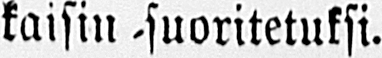kaisin suoritetuksi.
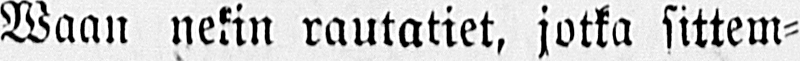Waan nekin rautatiet, jotka sittem-
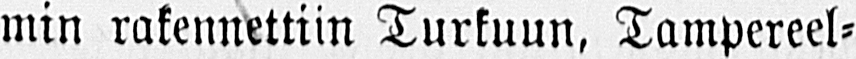min rakennettiin Turkuun, Tampereel-
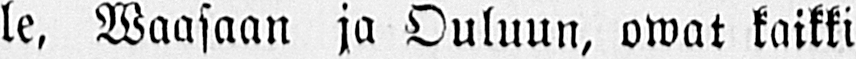le, Waasaan ja Ouluun, owat kaikki
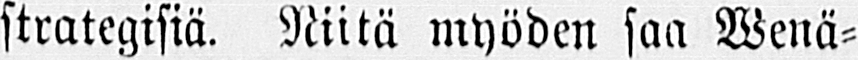strategisiä. Niitä myöden saa Wenä-
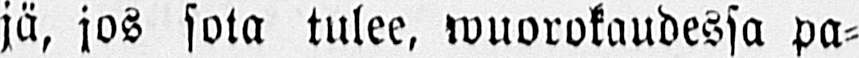jä, jos sota tulee, wuorokaudessa pa-
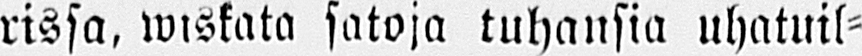rissa, wiskata satoja tuhansia uhatuil-
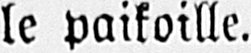le paikoille.
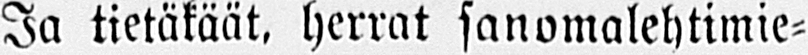Ja tietäkäät, herrat sanomalehtimie-
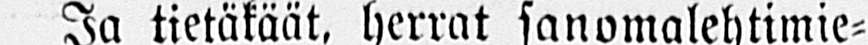het, siellä Wenäjällä wielä yksi asia.
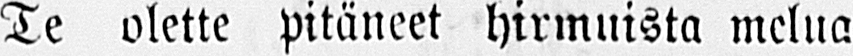Te olette pitäneet hirmuista melua
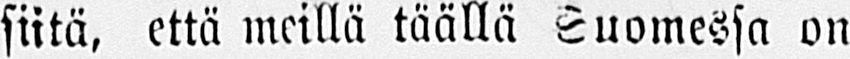siitä, että meillä täällä Suomessa on
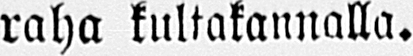raha kultakannalla.
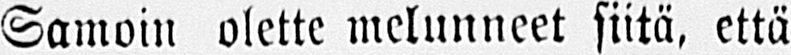Samoin olette melunneet siitä, että
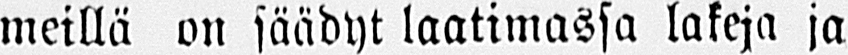meillä on säädyt laatimassa lakeja ja
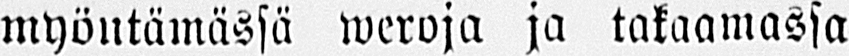myöntämässä weroja ja takaamassa
